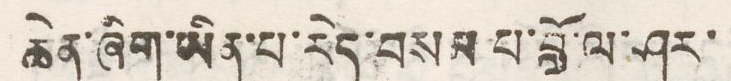ཆེན་ཞིག་ཡིན་པ་རེད་བསམ པ་བློ་ལ་ཤར་
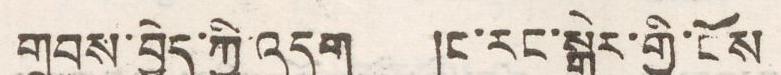གྲབས་བྱེད་ཀྱི་འདུག །ང་རང་སྒེར་གྱི་ངོས
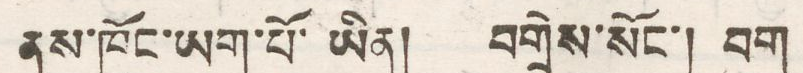ནས་ཁོང་ཡག་པོ་ཡིན། བགྲེས་སོང་། བག
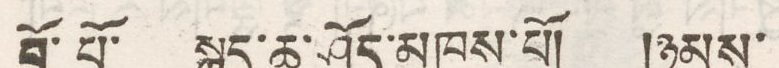བྲོ་པོ་ སྐད་ཆ་ཤོད་མཁས་པོ། །ཉམས་
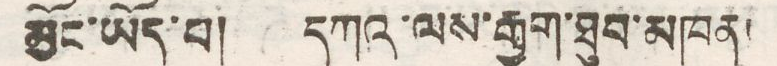མྱོང་ཡོད་པ། དཀའ་ལས་རྒྱག་ཐུབ་མཁན
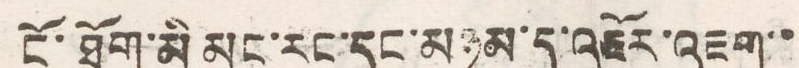ངོ་ཐོག་མི མང་རང་དང་མཉམ་དུ་འཇོར་འཇག་
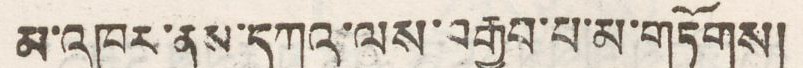མ་འཁུར་ནས་དཀར་ལས་བརྒྱབ་པ་མ་གཏོགས།
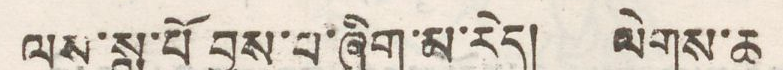ལས་སླ་པོ བྱས་པ་ཞིག་མ་རེད། ལེགས་ཆ
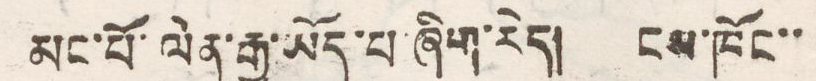མང་པོ་ལེན་རྒྱུ་ཡོད་པ་ཞིག་རེད། ངས་ཁོང་་
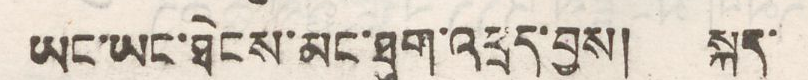ཡང་ཡང་ཐེངས་མང་ཐུག་འཕྲད་བྱས། སྐད་
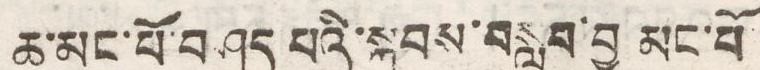ཆ་མང་པོ་བཤད པའི་སྐབས་བསླབ་བྱ མང་པོ
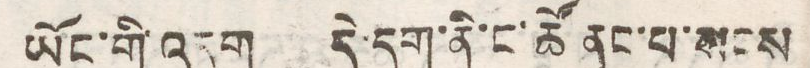ཡོང་གི་འདུག དེ་དག་ནི་ང་ཚོ ནང་པ་སངས
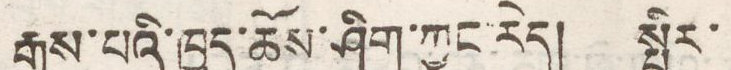རྒྱས་པའི་ཁྱད་ཆོས་ཤིག་ཀྱང་རེད། སྤྱིར་
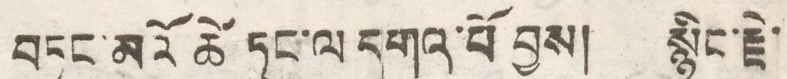བཏང་མའོ ཚེ ཏུང་ལ དགའ་པོ བྱས། སྙིང་རྗེ་
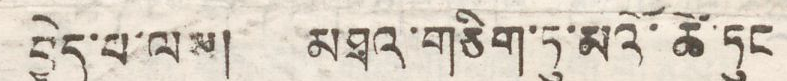བྱེད་པ་ལས། མཐའ་གཅིག་ཏུ་མའོ་ཚེ་ཏུང
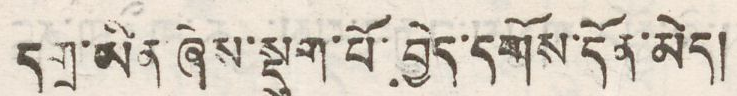དགྲ་ཡིན་ཞེས་སྡུག་པོ་བྱེད་དགོས་དོན་མེད།
